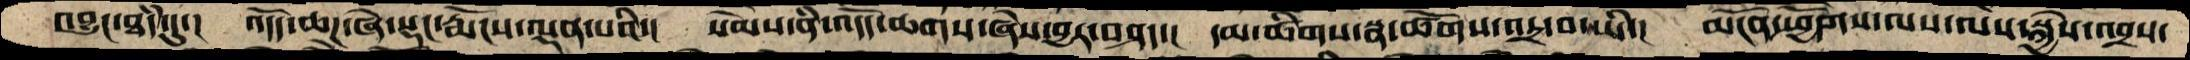འབྱུང་ཐཾད་དུ་།  འདོད་ཆཌ་ཞེ་སྡང་རྨོངས་ལྡན་པའི་།   སེམས་ནི་འདོད་ཆགས་ཞེས་བྱར་བཤད་།  དམ་ཚིགས་སྣ་ཚོགས་འདྲ་བ་ཡི་།  མངོན་ཕྱོགས་ལས་ལས་སྐྱེས་འབྲས་
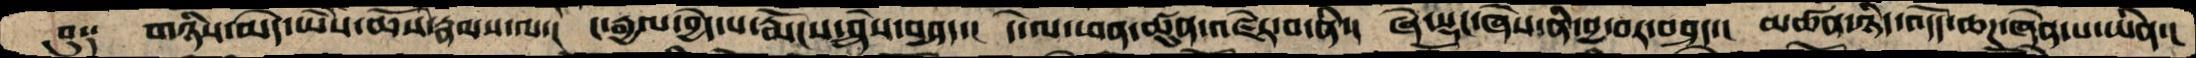བུ༑   གཉིས་མེད་ཡཻས་ཆོས་རྣམས་ལ་།  ང་རྒྱལ་བྱེད་པ་རྨོངས་ཤེས་བཤད་།  དེ་ལ་ཕན་ཚུན་འཛེར་བ་ནི་།  ཞེ་སྡང་ཞེས་ནི་བྱ་བར་བཤད་།  མཚན་ཉིད་འདོད་ཆཌ་ཞེན་པ་ཡིན་།
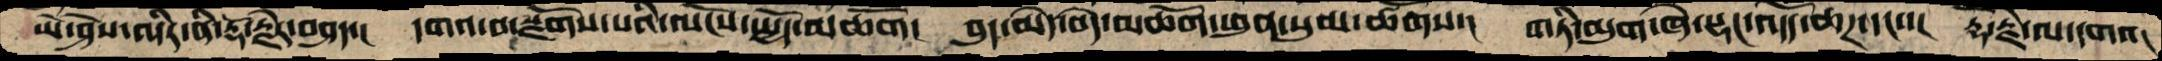ཡེ་ཤེས་འདིར་ནི་རྡོ་རྗེར་བཤད་།   དགའ་བ་སྫོགས་པའི་ལོངས་སྤྱོད་མཆོག།  བུད་མེད་བདེ་མཆོག་ཕུན་སུམ་ཚོགས་།  གཏི་མུག་ཞེ་སྡང་འདོད་ཆཌ་དང་་།  རྡོ་རྗེ་ལ་དགའ་
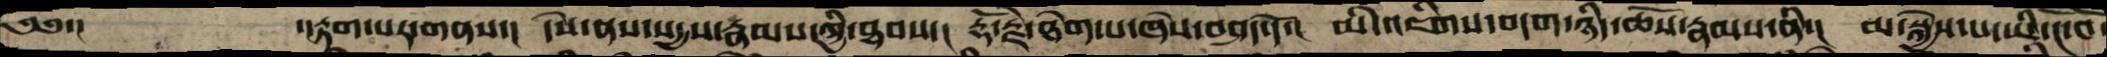༄༅་།         ་།རྟག་པར་གནས་།  དེས་ནས་སདྱས་རྣམས་ཀྱི་ཐབས་།   རྡོ་རྗེ་ཐེག་པ་ཞེས་བཤད་དོ་།  མི་འཇིགས་བདག་ཉིད་ཆོས་རྣམས་ནི་།  མ་སྐྱེས་པ་ཡི་ངོ་བོ་
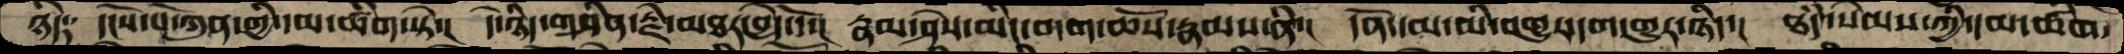ཉིད༑  དངོས་པོ་ཀུན་གྱི་དམ་ཚིག་སྟེ་།  དེ་ཉིད་གཤིན་རྗེ་མཐར་བྱེད་དོ་།  རྣམ་ཤེས་མིང་བདག་ཆོས་རྣམས་ནི་།  དོན་དམ་མི་འགྱུར་དག་གྱུར་ཉིད་།  ཐཾད་སེམས་ཀྱི་དམ་ཚིག་
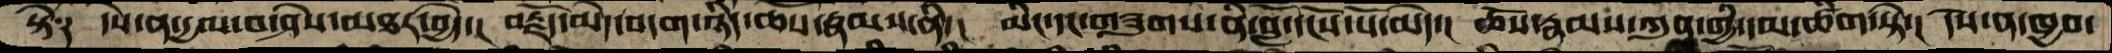སྟེ༑  དེས་ན་དྱལ་བ་ཤེས་མཐར་བྱེད་།  བརྗོད་མེད་བདག་ཉིད་ཆོས་རྣམས་ནི་།  མིང་དང་གཟུགས་ནི་བློ་དངོས་པོ་མེད་།  ཆོས་རྣམས་ཀུན་གྱི་དམ་ཚིག་སྟེ་།   དེས་ན་ཁྱབ་
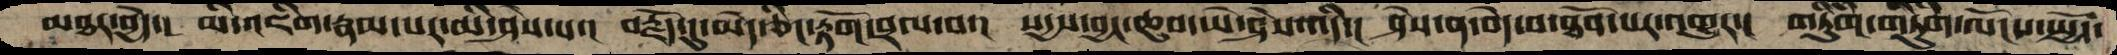མཐར་བྱེད་།  མི་འཇིག་རྣམ་པར་མི་ཤེས་པ་།  བརྗོད་དུ་མེད་ཅིང་རྟོག་བྲལ་བ་།  སདྱས་བྱང་ཆུབ་ཡེ་ཤེས་འདི་།  ཤེས་ན་བདེ་བ་ཐོབ་པར་འགྱུར་།  གཏིུཾག་གཏིུཾག་ལོངས་སྤྱོད་
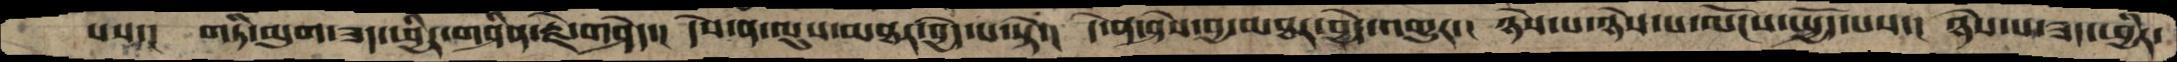པས་།   གཏི་མུག་ཟད་ཕྱིར་གཤིན་རྗེ་གཤེད་།  དེས་ན་ལུས་མཐར་བྱེད་པ་སྟེ་།  དེ་ན་ཤེས་བྱ་མཐར་བྱེད་འགྱུར་།  ཉེས་པ་ཉེས་པ་ལོངས་སྤྱོད་པས་།  ཉེས་པ་ཟད་ཕྱིར་
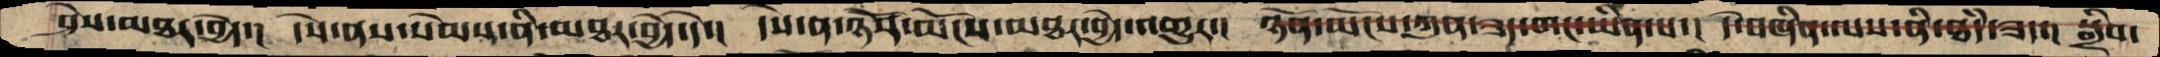ཤེས་མཐར་བྱེད་།  དེས་ནས་སེམས་ནི་མཐར་བྱེད་དེ་།  དེས་ན་ཉོན་མོངས་མཐར་བྱེད་འགྱུར་།  ཉོན་མོངས་ཀུན་ཟད་གང་ཡིན་པ་།  དེ་བཞིན་ལས་ནི་ཐཾད་ཟད་།  སྒྲིབ་
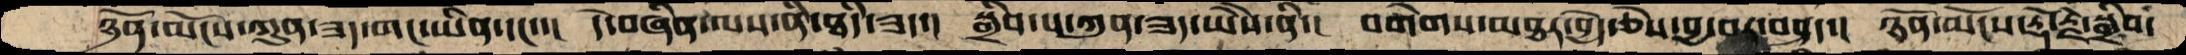ཉོན་མོངས་ཀུན་ཟད་གང་ཡིན་དང་་།  དེ་བཞིན་ལས་ནི་ཐཾད་ཟད་།  སྒྲིབ་པ་ཀུན་ཟད་ཡཻས་ནི་།  བགེགས་མཐར་བྱེད་ཅེས་བྱ་བར་བཤད་།  ཉོན་མོངས་རྡོ་རྗེ་སྒྲིབ་
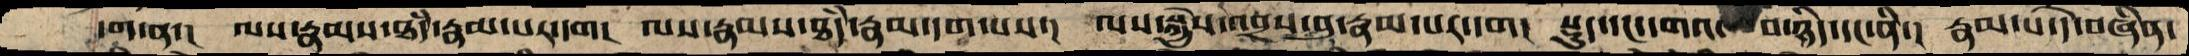དག་ན་།  ལས་རྣམས་ཐཾད་རྣམ་པར་དག།  ལས་རྣམས་ཐཾད་རྣམ་དག་པས་།  ལས་སྐྱེས་འབྲས་བུ་རྣམ་པར་དག།  སྡུད་དང་དགའ་  བ་ཉིད་དང་ནི་།  རྣམ་པ་དེ་བཞིན་
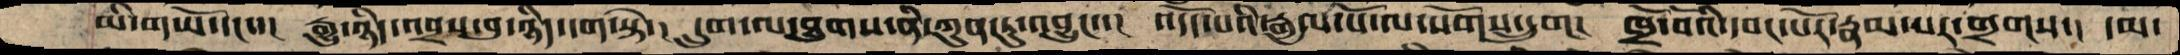མི་གཡོ་དང་་།  རྒྱུ་ཉིད་འབྲས་བུ་ཉིད་དག་སྟེ་།  དྲུག་ལ་ཐུགས་ནི་ཀུན་ཏུ་འབྱུང་་།  འདོད་པའི་རྒྱལ་པོ་ལ་སོགས་དྲུག།  ཁྲོ་བོའི་དབང་པོར་རྣམ་པར་གྲགས་།  དམ་
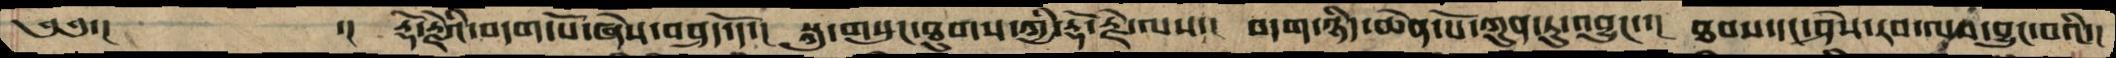༄༅་།         ་།  རྡོ་རྗེའི་བདག་པོ་ཞེས་བཤད་དོ་།  སྐུ་གསུང་ཐུགས་ཀྱི་རྡོ་རྗེ་ལས་།  བདག་ཉིད་ཆེན་པོ་ཀུན་ཏུ་འབྱུང་་།  ཐབས་དང་ཤེས་རབ་ལས་བྱུང་བའི་།
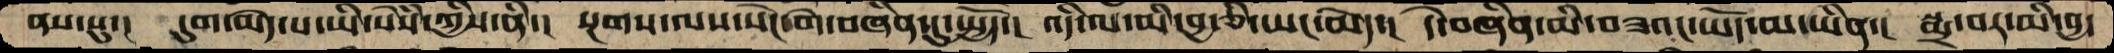ནས་སུ་།  དུག་མེད་པ་ཡི་སེསཾ་ཀྱིས་ནི་།  སྔགས་ལས་སེང་གེ་བཞིན་དུ་སྤྱོད་། འདི་ལ་མི་བྱ་ཅི་ཡང་མེད་།  དེ་བཞིན་མི་བཟའང་ཡོད་མ་ཡིན་།  སྨྲ་བར་མི་བྱ་
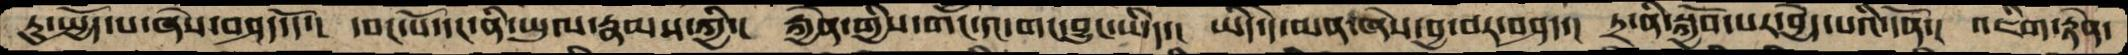ཏུ་སྤྱོད་པ་ཞེས་བཤད་དོ་།  དབང་པོ་དང་ནི་ཡུལ་རྣམས་ཀྱི་།  རྐྱེན་གྱིས་གང་དང་གང་བྱུང་ཡིད་།  ཡིད་དེ་མན་ཞེས་བྱ་བར་བཤད་།  ཏྲ་ནི་སྐྱོབ་པར་བྱེད་པའི་དོན་།  འཇིག་རྟེན་
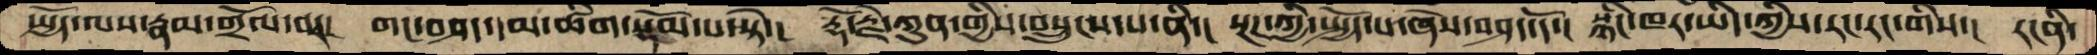སྤྱོད་ལས་རྣམ་གྲོལ་བ་།  གང་བཤད་དམ་ཚིག་སྡོམ་པ་སྟེ་།  རྡོ་རྗེ་ཀུན་གྱིས་བསྲུངས་པ་ནི་།  སྔཌ་ཀྱི་སྤྱོད་པ་ཞེས་བཤད་དོ་།  སྙིང་ཁར་ཡིད་ཀྱིས་རང་རང་གིས།  རངིན་
